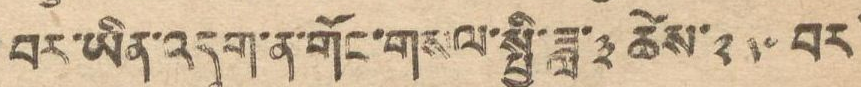བར་ཡིན་འདུག་ན་གོང་གསལ་སྤྱི་ཟླ་༣ ཚེས་༢༥ བར་
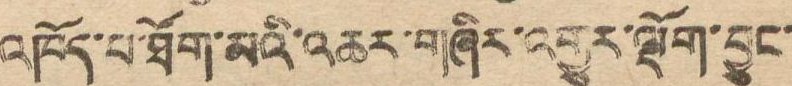འཁོད་པ་ཐོག་མའི་འཆར་གཞིར་འགྱུར་ལྡོག་བྱུང་
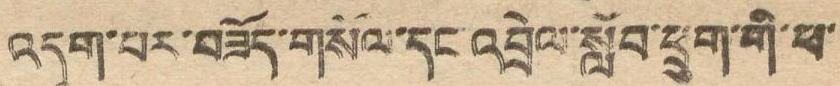འདུག་པར་བཟོད་གསོལ་དང་འབྲེལ་སློབ་ཕྲུག་གི་ཕ་
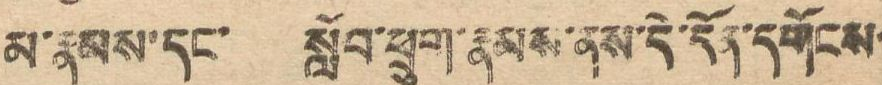མ་རྣམས་དང་ སློབ་ཕྲུག་རྣམས་ནས་དེ་དོན་དགོངས་
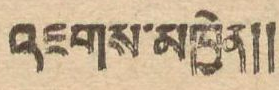འཇགས་མཁྱེན།
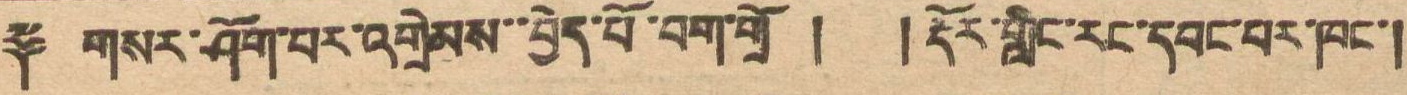༈ གསར་ཤོག་པར་འགྲེམས་་བྱེད་པོ་བག་གྲོ ། །རྡོར་གླིང་རང་དབང་པར་ཁང་།
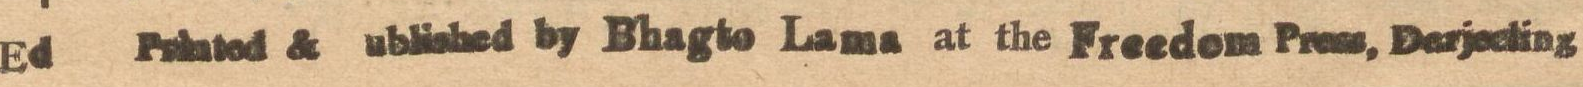Ed Printed & Published by Bhagto Lama at the Freedom Press, Derjeeling
